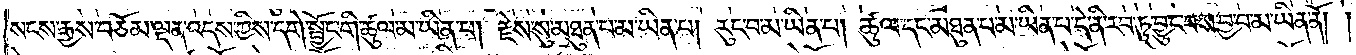སངས་རྒྱས་བཅོམ་ལྡན་འདས་ཀྱིས་དགེ་སྦྱོང་གི་ཚུལ་མ་ཡིན་པ། རྗེས་སུ་མཐུན་པ་མ་ཡིན་པ། རུང་བ་མ་ཡིན་པ། ཚུལ་དང་མཐུན་པ་མ་ཡིན་པ་དེ་ནི་རབ་ཏུ་བྱུང་བས་བྱ་བ་མ་ཡིན་ནོ། །
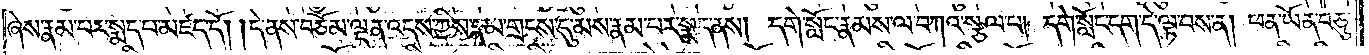ཞེས་རྣམ་པར་སྨད་པ་མཛད་དོ། །དེ་ནས་བཅོམ་ལྡན་འདས་ཀྱིས་རྣམ་གྲངས་དུ་མས་རྣམ་པར་སྨད་ནས། དགེ་སློང་རྣམས་ལ་བཀའ་སྩལ་པ། དགེ་སློང་དག་དེ་ལྟ་བས་ན། ཕན་ཡོན་བཅུ་
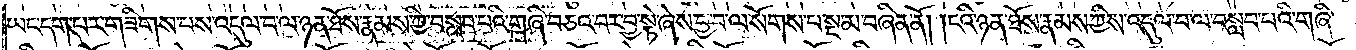ཡང་དག་པར་གཟིགས་པས་འདུལ་བ་ལ་ཉན་ཐོས་རྣམས་ཀྱི་བསླབ་པའི་གཞི་བཅའ་བར་བྱ་སྟེ་ཞེས་བྱ་བ་ལ་སོགས་པ་སྔ་མ་བཞིན་ནོ། །ངའི་ཉན་ཐོས་རྣམས་ཀྱིས་འདུལ་བ་ལ་བསླབ་པའི་གཞི་
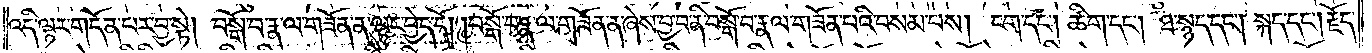འདི་ལྟར་གདོན་པར་བྱ་སྟེ། བསྒོ་བ་རྣ་ལ་གཞོན་ན་ལྟུང་བྱེད་དོ། །བསྒོ་བ་རྣ་ལ་གཟོན་ན་ཞེས་བྱ་བ་ནི་བསྒོ་བ་རྣལ་གཟོན་པའི་བསམ་པས། ངག་དང༌། ཚིག་དང༌། ཐ་སྙད་དང༌། སྐད་དང༌། རྗོད་
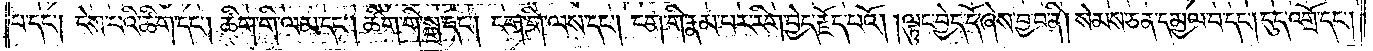པ་དང༌། ངེས་པའི་ཚིག་དང༌། ཚིག་གི་ལམ་དང༌། ཚིག་གི་སྒྲ་དང༌། ངག་གི་ལས་དང༌། ངག་གི་རྣམ་པར་རིག་བྱེད་རྗོད་པའོ། །ལྟུང་བྱེད་དོ་ཞེས་བྱ་བ་ནི། སེམས་ཅན་དམྱལ་བ་དང༌། དུད་འགྲོ་དང༌།
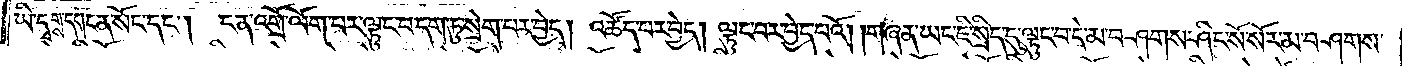ཡི་དྭགས་དག་ངན་སོང་དང༌། ངན་འགྲོ་ལོག་པར་ལྟུང་བ་དག་ཏུ་སྲེག་པར་བྱེད། འཚོད་པར་བྱེད། ལྟུང་བར་བྱེད་པའོ། །གཞན་ཡང་ཇི་སྲིད་དུ་ལྟུང་བ་དེ་མ་བཤགས་ཤིང་སོ་སོར་མ་བཤགས་
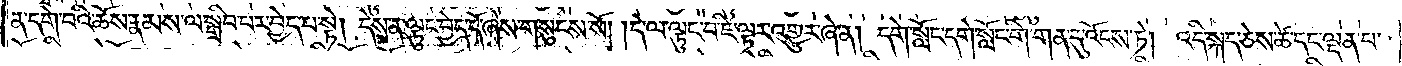ན་དགེ་བའི་ཆོས་རྣམས་ལ་སྒྲིབ་པར་བྱེད་པ་སྟེ། དེས་ན་ལྟུང་བྱེད་དོ་ཞེས་གསུངས་སོ། །དེ་ལ་ལྟུང་བ་ཇི་ལྟར་འགྱུར་ཞེ་ན། དགེ་སློང་དགེ་སློང་གི་གན་དུ་འོངས་ཏེ། འདི་སྐད་ཅེས་ཚེ་དང་ལྡན་པ་
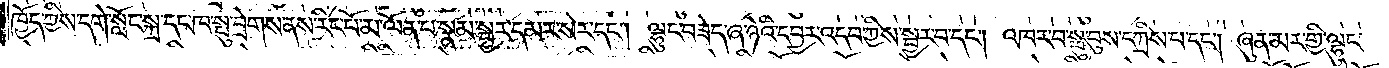ཁྱོད་ཀྱིས་དགེ་སློང་སྐྲ་དང་ཁ་སྤུ་བྲེགས་ནས་རིང་པོ་མ་ལོན་པ་སྣམ་སྦྱར་དམར་སེར་དང༌། ལྷུང་བཟེད་ཞ་ཉེའི་དབྱར་འདབ་ཀྱིས་སྦྱར་བ་དང༌། འཁར་བ་སྦུ་བུས་དཀྲིས་པ་དང༌། ཞུན་མར་གྱི་ལྷུང་
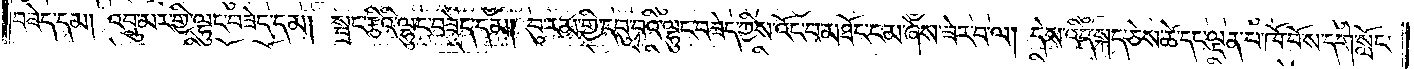བཟེད་དམ། འབྲུ་མར་གྱི་ལྷུང་བཟེད་དམ། སྦྲང་རྩིའི་ལྷུང་བཟེད་དམ། བུ་རམ་གྱི་དབུ་བའི་ལྷུང་བཟེད་ཀྱིས་འོང་བ་མཐོང་ངམ་ཞེས་ཟེར་བ་ལ། དེས་འདི་སྐད་ཅེས་ཚེ་དང་ལྡན་པ་ཁོ་བོས་དགེ་སློང་
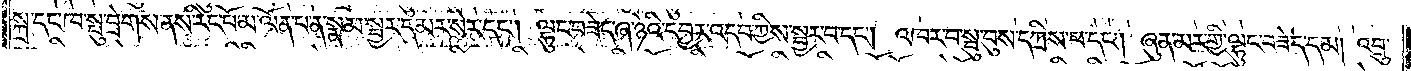སྐྲ་དང་ཁ་སྤུ་བྲེགས་ནས་རིང་པོ་མ་ལོན་པ་ན་སྣམ་སྦྱར་དམར་སེར་དང༌། ལྷུང་བཟེད་ཞ་ཉེའི་དབྱར་འདབ་ཀྱིས་སྦྱར་བ་དང༌། འཁར་བ་སྦུ་བུས་དཀྲིས་པ་དང༌། ཞུན་མར་གྱི་ལྷུང་བཟེད་དམ། འབྲུ་
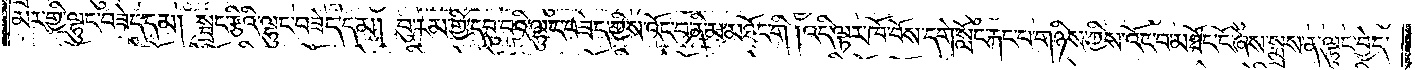མར་གྱི་ལྷུང་བཟེད་དམ། སྦྲང་རྩིའི་ལྷུང་བཟེད་དམ། བུ་རམ་གྱི་དབུ་བའི་ལྷུང་བཟེད་ཀྱིས་འོང་བ་ནི་མ་མཐོང་གི །འདི་ལྟར་ཁོ་བོས་དགེ་སློང་རྐང་པ་གཉིས་ཀྱིས་འོང་བ་མཐོང་ངོ་ཞེས་སྨྲས་ན་ལྟུང་བྱེད་
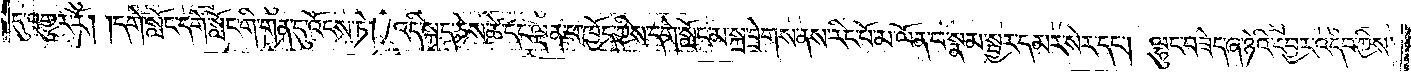དུ་འགྱུར་རོ། །དགེ་སློང་དགེ་སློང་གི་གན་དུ་འོངས་ཏེ། འདི་སྐད་ཅེས་ཚེ་དང་ལྡན་པ་ཁྱོད་ཀྱིས་དགེ་སློང་མ་སྐྲ་བྲེགས་ནས་རིང་པོ་མ་ལོན་པ་སྣམ་སྦྱར་དམར་སེར་དང༌། ལྷུང་བཟེད་ཞ་ཉེའི་དབྱར་འདབ་ཀྱིས་
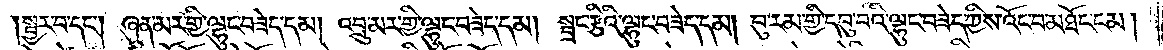སྦྱར་བ་དང༌། ཞུན་མར་གྱི་ལྷུང་བཟེད་དམ། འབྲུ་མར་གྱི་ལྷུང་བཟེད་དམ། སྦྲང་རྩིའི་ལྷུང་བཟེད་དམ། བུ་རམ་གྱི་དབུ་བའི་ལྷུང་བཟེད་ཀྱིས་འོང་བ་མཐོང་ངམ།
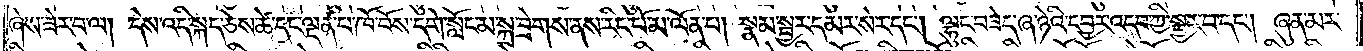ཞེས་ཟེར་བ་ལ། དེས་འདི་སྐད་ཅེས་ཚེ་དང་ལྡན་པ་ཁོ་བོས་དགེ་སློང་མ་སྐྲ་བྲེགས་ནས་རིང་པོ་མ་ལོན་པ། སྣམ་སྦྱར་དམར་སེར་དང༌། ལྷུང་བཟེད་ཞ་ཉེའི་དབྱར་འདབ་ཀྱི་སྦྱར་བ་དང༌། ཞུན་མར་
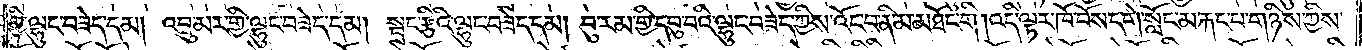གྱི་ལྷུང་བཟེད་དམ། འབྲུ་མར་གྱི་ལྷུང་བཟེད་དམ། སྦྲང་རྩིའི་ལྷུང་བཟེད་དམ། བུ་རམ་གྱི་དབུ་བའི་ལྷུང་བཟེད་ཀྱིས་འོང་བ་ནི་མ་མཐོང་གི །འདི་ལྟར་ཁོ་བོས་དགེ་སློང་མ་རྐང་པ་གཉིས་ཀྱིས་
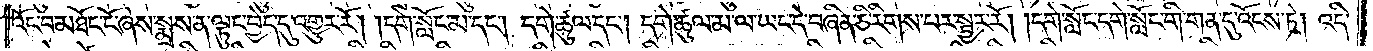འོང་བ་མཐོང་ངོ་ཞེས་སྨྲས་ན་ལྟུང་བྱེད་དུ་འགྱུར་རོ། །དགེ་སློང་མ་དང༌། དགེ་ཚུལ་དང༌། དགེ་ཚུལ་མ་ལ་ཡང་དེ་བཞིན་ཅི་རིགས་པར་སྦྱར་རོ། །དགེ་སློང་དགེ་སློང་གི་གན་དུ་འོངས་ཏེ། འདི་
